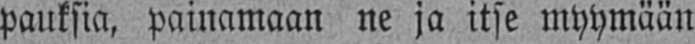pauksia, painamaan ne ja itse myymään
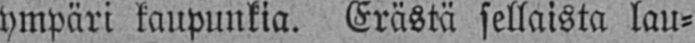ympäri kaupunkia. Erästä sellaista lau-
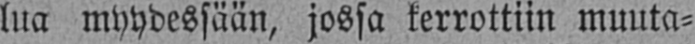lua myydessään, jossa kerrottiin muuta-
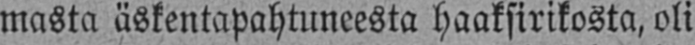masta äskentapahtuneesta haaksirikosta, oli
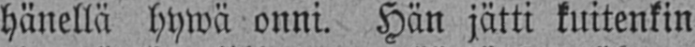hänellä hywä onni. Hän jätti kuitenkin
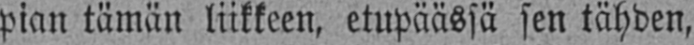pian tämän liikkeen, etupäässä sen tähden,
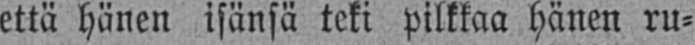että hänen isänsä teki pilkkaa hänen ru-
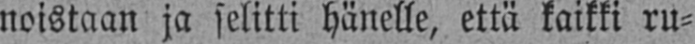noistaan ja selitti hänelle, että kaikki ru-
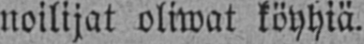noilijat oliwat köyhiä.
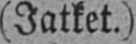(Jatket.)
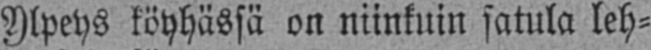Ylpeys köyhässä on niinkuin satula leh-
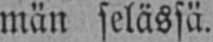män selässä.
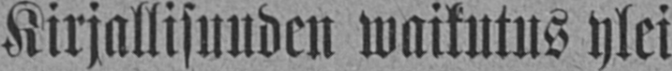Kirjallisuuden waikutus ylei-
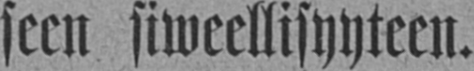seen siweellisyyten.
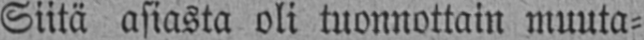Siitä asiasta oli tuonnottain muuta-
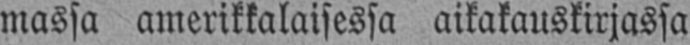massa amerikkalaisessa aikakauskirjassa
